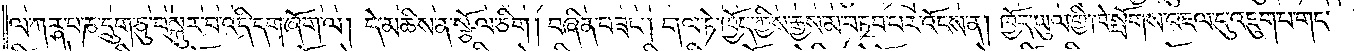ལ་ཀཪྴ་པ་ཎ་དྲུག་ཅུ་བསྐུར་བ་འདི་དག་ཞོག་ལ། དེ་མཆིས་ན་སྩོལ་ཅིག །བཞིན་བཟང༌། གལ་ཏེ་ཁྱོད་ཀྱིས་རྒྱས་མ་བཏབ་པར་འོངས་ན། ཁྱོད་ཡུལ་གྱི་ཁེ་སྤོགས་འཇལ་དུ་འཇུག་པ་གང་
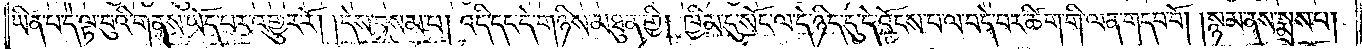ཡིན་པ་དེ་ལྟ་བུའི་གནས་ཡོད་པར་འགྱུར་རོ། །དེས་བསམ་པ། འདི་དང་དེ་གཉིས་མཐུན་གྱི། ཁྱིམ་དུ་སོང་ལ་དེ་ཉིད་དུ་དེ་འོངས་པ་ལ་བདེ་བར་ཚིག་གི་ལན་གདབ་བོ། །སྙམ་ནས་སྨྲས་པ།
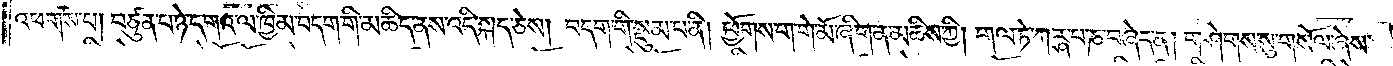འཕགས་པ། བཙུན་པ་ཉེ་དགའ་ལ་ཁྱིམ་བདག་གི་མཆིད་ནས་འདི་སྐད་ཅེས། བདག་གི་སྡུམ་པ་ནི། ཕྱོགས་ག་གེ་མོ་ཞིག་ན་མཆིས་ཀྱི། གལ་ཏེ་ཀཪྴ་པ་ཎ་བཞེད་ན། གཤེགས་སུ་གསོལ་ཞེས་
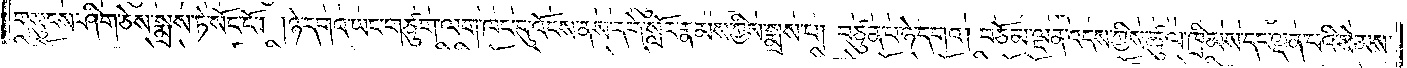གསུངས་ཤིག་ཅེས་སྨྲས་ཏེ་སོང་ངོ༌། །ཉེ་དགའ་ཡང་གཙུག་ལག་ཁང་དུ་འོངས་ནས་དགེ་སློང་རྣམས་ཀྱིས་སྨྲས་པ། བཙུན་པ་ཉེ་དགའ། བཅོམ་ལྡན་འདས་ཀྱིས་ཚུལ་ཁྲིམས་དང་ལྡན་པའི་སེམས་
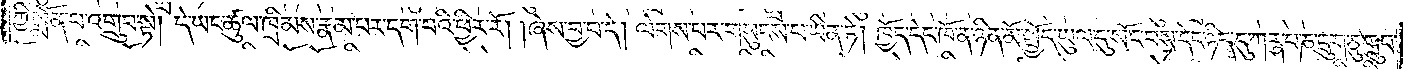ཀྱི་སྨོན་པ་འགྲུབ་སྟེ། དེ་ཡང་ཚུལ་ཁྲིམས་རྣམ་པར་དག་པའི་ཕྱིར་རོ། །ཞེས་བྱ་བ་དེ། ལེགས་པར་གསུངས་པ་ཡིན་ཏེ། ཁྱོད་དེང་ཁོ་ན་ཉིན་མོ་སྤྱོད་ཡུལ་དུ་སོང་བས་དེང་ཉིད་དུ་ཀཪྴ་པ་ཎ་དྲུག་ཅུ་གྲུབ་
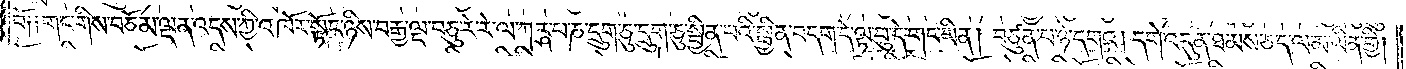བོ༑༑ གང་གིས་བཅོམ་ལྡན་འདས་ཀྱི་འཁོར་སྟོང་ཉིས་བརྒྱ་ལྔ་བཅུ་རེ་རེ་ལ་ཀཪྴ་པ་ཎ་དྲུག་ཅུ་དྲུག་ཅུ་སྦྱིན་པའི་སྦྱིན་བདག་དེ་ལྟ་བུ་དེ་གང་ཡིན། བཙུན་པ་ཉེ་དགའ། དགེ་འདུན་ཐམས་ཅད་ལ་མ་ཡིན་གྱི།
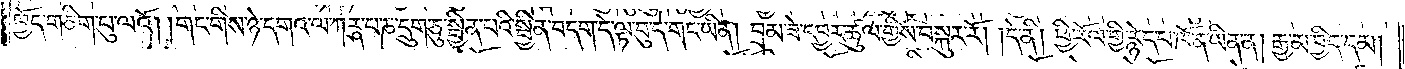ཁྱོད་ཅིག་པུ་ལའོ། །གང་གིས་ཉེ་དགའ་ལ་ཀཪྴ་པ་ཎ་དྲུག་ཅུ་སྦྱིན་པའི་སྦྱིན་བདག་དེ་ལྟ་བུ་དེ་གང་ཡིན། བྲམ་ཟེ་དབྱར་ཚུལ་གྱིས་བསྐུར་རོ། །དེ་ནི། ཕྱི་རོལ་གྱི་རྙེད་པ་ཁོ་ན་ཡིན་ན། རྒྱ་མ་བྱིད་དམ།
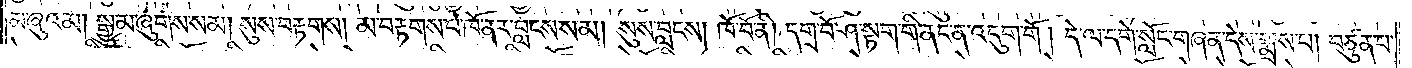མ་ཞུའམ། སྒྱུ་མ་ཞུགས་སམ། སུས་བརྟགས། མ་བརྟགས་པ་ཁོ་ནར་བླངས་སམ། སུས་བླངས། ཁོ་བོ་ནི། དགྲ་བོ་ཤ་སྟག་གི་ནང་ན་འདུག་གོ ། དེ་ལ་དགེ་སློང་གཞན་དེས་སྨྲས་པ། བཙུན་པ་
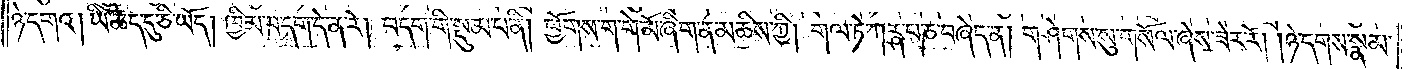ཉེ་དགའ། ཡི་ཆད་དུ་ཅི་ཡོད། ཁྱིམ་བདག་དེ་ན་རེ། བདག་གི་སྡུམ་པ་ནི། ཕྱོགས་ག་གེ་མོ་ཞིག་ན་མཆིས་ཀྱི། གལ་ཏེ་ཀཪྴ་པ་ཎ་བཞེད་ན། གཤེགས་སུ་གསོལ་ཞེས་ཟེར་རོ། །ཉེ་དགས་སྣམ་
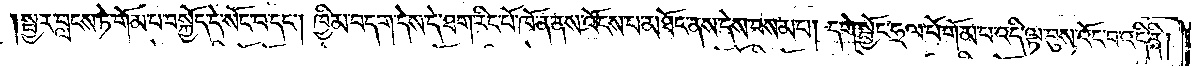སྦྱར་བླངས་ཏེ་གོམ་པ་བསྐྱོད་དེ་སོང་བ་དང༌། ཁྱིམ་བདག་དེས་དེ་ཐག་རིང་པོ་ཁོ་ན་ནས་འོངས་པ་མཐོང་ནས་དེས་བསམ་པ། དགེ་སྦྱོང་ཧྲལ་པོ་གོམ་པ་འདི་ལྟ་བུས་འོང་བ་འདི་ནི།
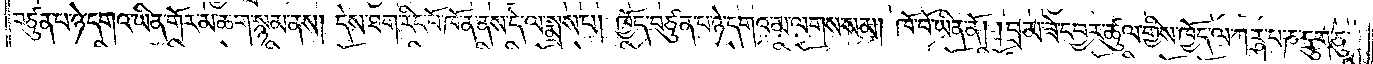བཙུན་པ་ཉེ་དགའ་ཡིན་གོར་མ་ཆག་སྙམ་ནས། དེས་ཐག་རིང་པོ་ཁོ་ན་ནས་དེ་ལ་སྨྲས་པ། ཁྱོད་བཙུན་པ་ཉེ་དགའ་མ་ལགས་སམ། ཁོ་བོ་ཡིན་ནོ། །བྲམ་ཟེ་དབྱར་ཚུལ་གྱིས་ཁྱོད་ལ་ཀཪྴ་པ་ཎ་དྲུག་ཅུ་
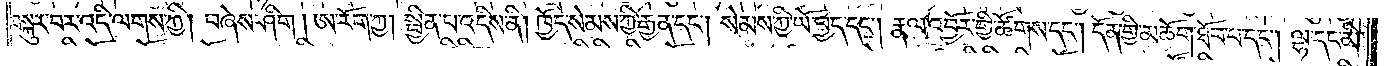བསྐུར་བར་འདི་ལགས་ཀྱི། བཞེས་ཤིག། ཨ་རོག་ཀྱ། སྦྱིན་པ་འདིས་ནི། ཁྱོད་སེམས་ཀྱི་རྒྱན་དང༌། སེམས་ཀྱི་ཡོ་བྱད་དང༌། རྣལ་འབྱོར་གྱི་ཚོགས་དང༌། དོན་གྱི་མཆོག་ཐོབ་པ་དང༌། ལྷ་དང་མི་
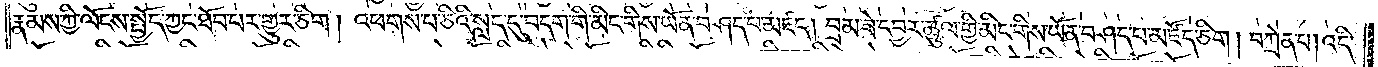རྣམས་ཀྱི་ལོངས་སྤྱོད་ཀྱང་ཐོབ་པར་གྱུར་ཅིག། འཕགས་པ་ཅིའི་སླད་དུ་བདག་གི་མིང་གིས་ཡོན་བཤད་པ་མཛད། བྲམ་ཟེ་དབྱར་ཚུལ་གྱི་མིང་གིས་ཡོན་བཤད་པ་མཛོད་ཅིག། བཀྲེན་པ། འདི་
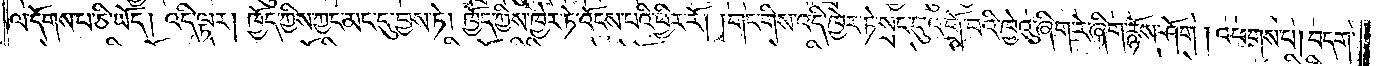ལ་དོགས་པ་ཅི་ཡོད། འདི་ལྟར། ཁྱོད་ཀྱིས་ཀྱང་མང་དུ་བྱས་ཏེ། ཁྱོད་ཀྱིས་ཁྱེར་ཏེ་འོངས་པའི་ཕྱིར་རོ། །གང་གིས་འདི་ཁྱེར་ཏེ་སྲང་དུ་འགྲོ་བའི་ཁྱེའུ་ཞིག་རེ་ཞིག་རྙོས་ཤོག། འཕགས་པ། བདག་
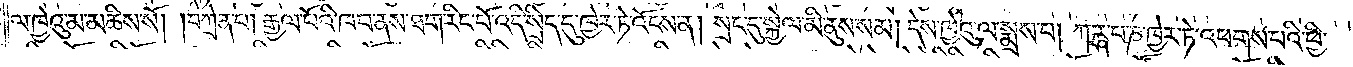ལ་ཁྱེའུ་མ་མཆིས་སོ། །བཀྲེན་པ། རྒྱལ་པོའི་ཁབ་ནས་ཐག་རིང་པོ་འདི་སྲིད་དུ་ཁྱེར་ཏེ་འོངས་ན། སྲང་དུ་སྐྱེལ་མི་ནུས་སམ། དེས་ཁྱེའུ་ལ་སྨྲས་པ། ཀཪྴ་པ་ཎ་ཁྱེར་ཏེ་འཕགས་པའི་ཕྱི་
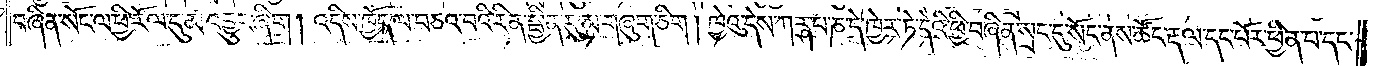བཞིན་སོང་ལ་ཕྱི་རོལ་དུ་མ་འབྱུང་ཞིག། འདིས་ཁྱོད་ལ་བཅའ་བའི་རིན་སྦྱིན་དུ་མ་གཞུག་ཅིག། ཁྱེའུ་དེས་ཀཪྴ་པ་ཎ་དེ་ཁྱེར་ཏེ་དེའི་ཕྱི་བཞིན་སྲང་དུ་སོང་ནས་ཚོང་རྡལ་དང་པོར་ཕྱིན་པ་དང་
